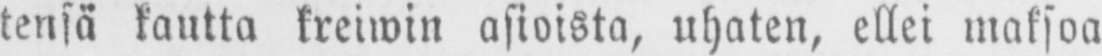tensä kautta kreiwin asioista, uhaten, ellei maksoa
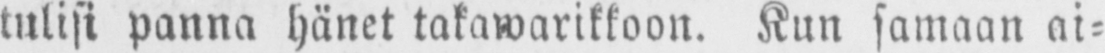tulisi panna hänet takawarikkoon. Kun samaan ai-
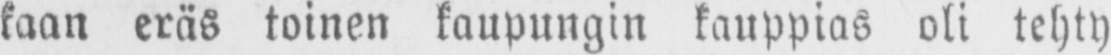kaan eräs toinen kaupungin kauppias oli tehty
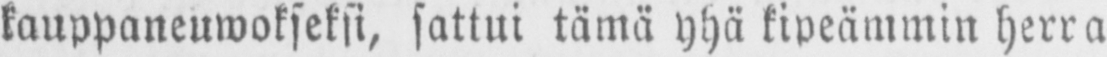kauppaneuwokseksi, sattui tämä yhä kipeämmin herra
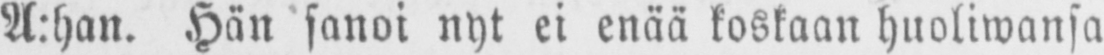A:han. Hän sanoi nyt ei enää koskaan huoliwansa
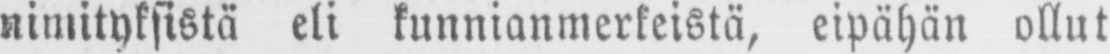nimityksistä eli kunnianmerkeistä, eipähän ollut
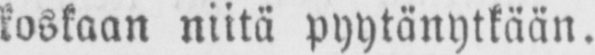koskaan niitä pyytänytkään.
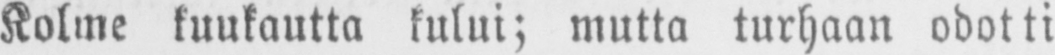Kolme kuukautta kului; mutta turhaan odotti
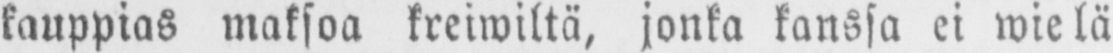kauppias maksoa kreiwiltä, jonka kanssa ei wielä
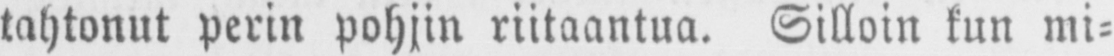tahtonut perin pohjin riitaantua. Silloin kun mi-
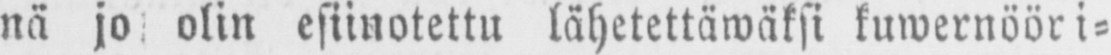nä jo olin esiinotettu lähetettäwäksi kuwernööri-
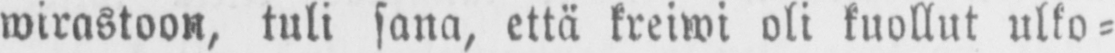wirastoon, tuli sana, että kreiwi oli kuollut ulko-
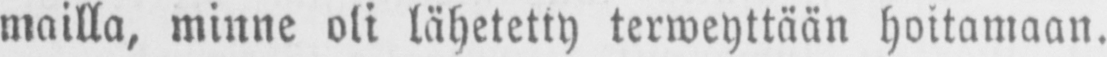mailla, minne oli lähetetty terweyttään hoitamaan.
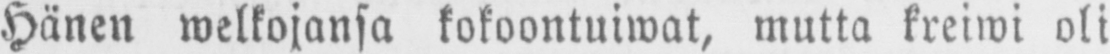Hänen welkojansa kokoontuiwat, mutta kreiwi oli
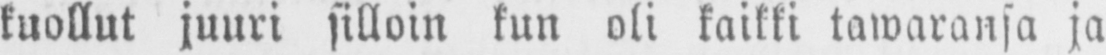kuollut juuri silloin kun oli kaikki tawaransa ja
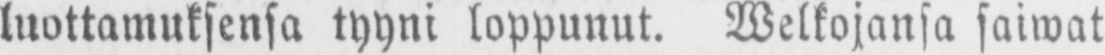luottamuksensa tyyni loppunut. Welkojansa saiwat
